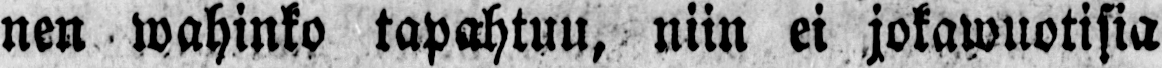nen wahinko tapahtuu, niin ei jokawuotisia
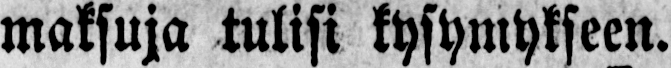maksuja tulisi kysymykseen.
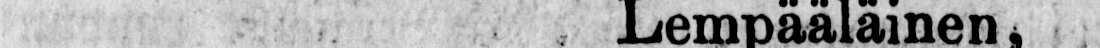Lempääläinen,
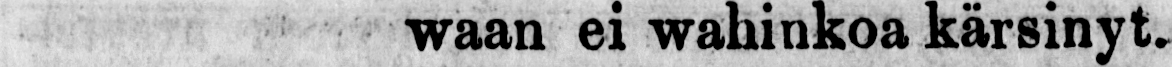waan ei wahinkoa kärsinyt.
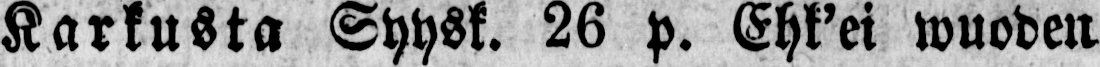Karkusta Syysk. 26 p. Ehk'ei wuoden
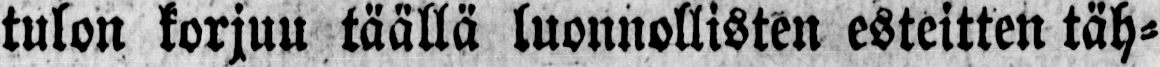tulon korjuu täällä luonnollisten esteitten täh-
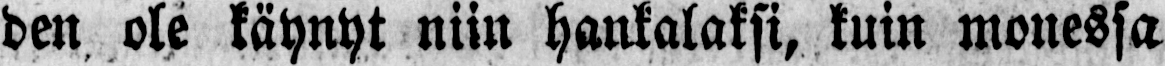den ole käynyt niin hankalaksi, kuin monessa
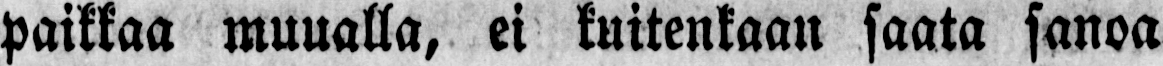paikkaa muualla, ei kuitenkaan saata sanoa
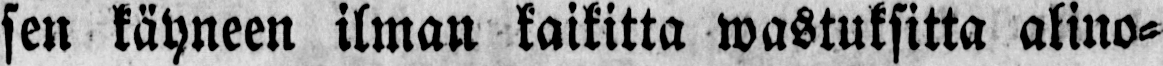sen käyneen ilman kaikitta wastuksitta alino-
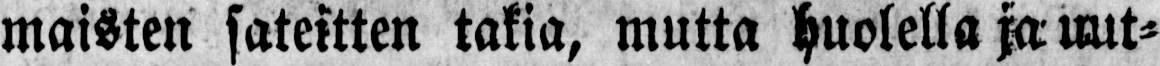maisten sateitten takia, mutta huolella ja uut-
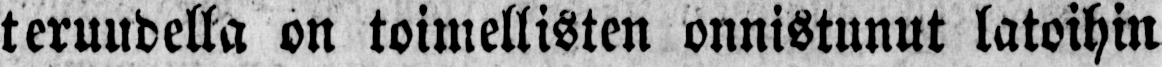teruudella on toimellisten onnistunut latoihin
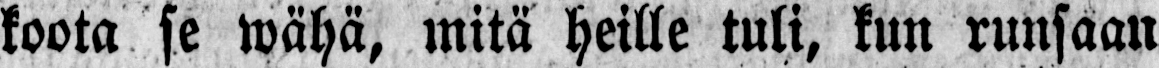koota se wähä, mitä heille tuli, kun runsaan
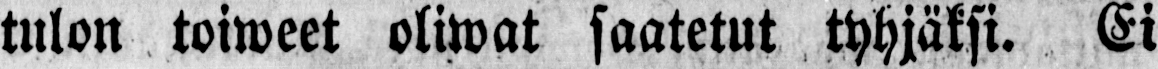tulon toiweet oliwat saatetut tyhjäksi. Ei
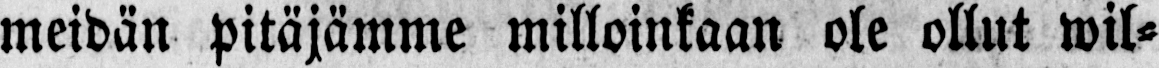meidän pitäjämme milloinkaan ole ollut wil-
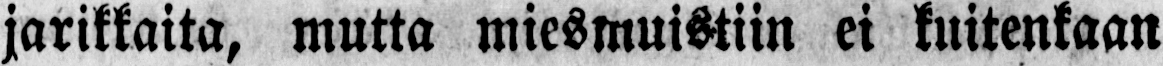jarikkaita, mutta miesmuistiin ei kuitenkaan
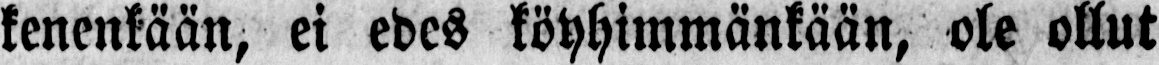kenenkään, ei edes köyhimmänkään, ole ollut
